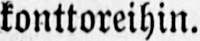konttoreihin.
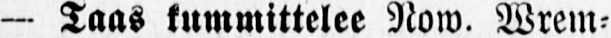— Taas kummittelee Now. Wrem-
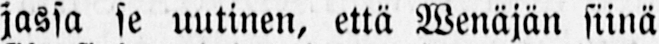jassa se uutinen, että Wenäjän siinä
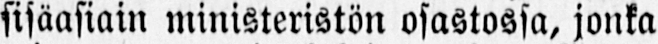sisäasiain ministeristön osastossa, jonka
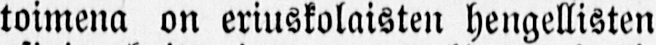toimena on eriuskolaisten hengellisten
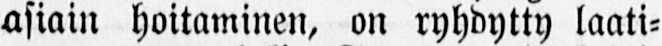asiain hoitaminen, on ryhdytty laati-
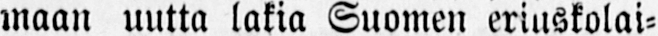maan uutta lakia Suomen eriuskolai-
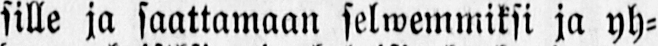sille ja saattamaan selwemmiksi ja yh-
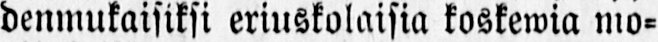denmukaisiksi eriuskolaisia koskewia mo-
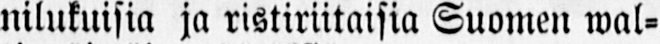nilukuisia ja ristiriitaisia Suomen wal-
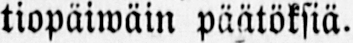tiopäiwäin päätöksiä.
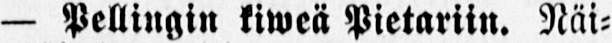— Pellingin kiweä Pietariin. Näi-
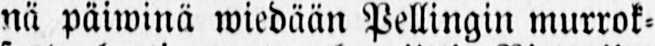nä päiwinä wiedään Pellingin murrok-
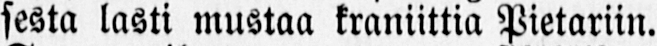sesta lasti mustaa kraniittia Pietariin.
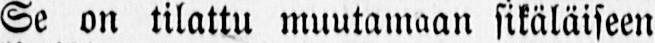Se on tilattu muutamaan sikäläiseen
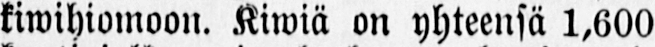kiwihiomoon. Kiwiä on yhteensä 1,600
